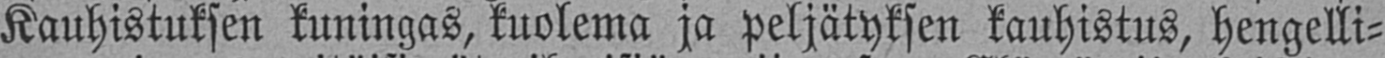Kauhistuksen kuningas, kuolema ja peljätyksen kauhistus, hengelli-
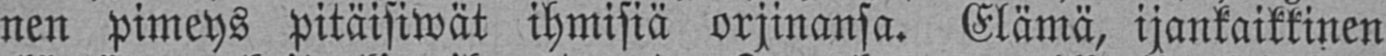nen pimeys pitäisiwät ihmisiä orjinansa. Elämä, ijankaikkinen
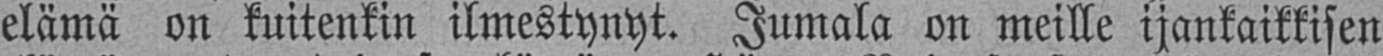elämä on kuitenkin ilmestynyt. Jumala on meille ijankaikkisen
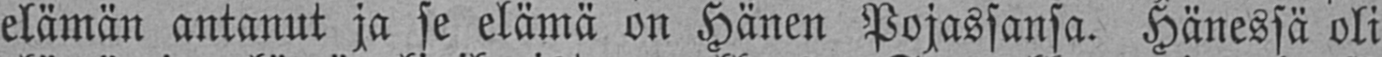elämän antanut ja se elämä on Hänen Pojassansa. Hänessä oli
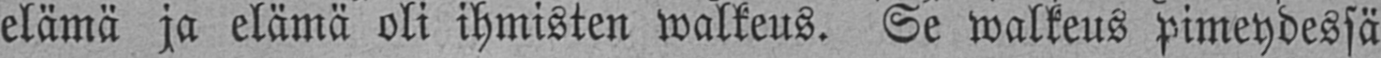elämä ja elämä oli ihmisten walkeus. Se walkeus pimeydessä
